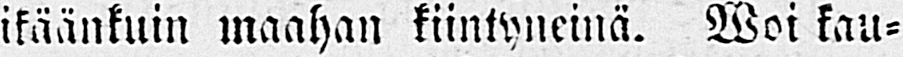ikäänkuin maahan kiintyneinä. Woi kau-
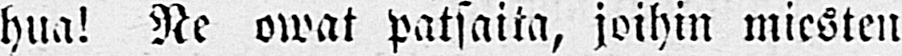hua! Ne owat patsaita, joihin miesten
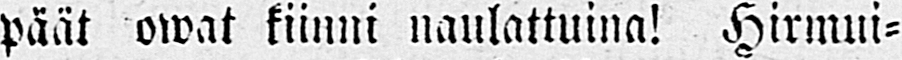päät owat kiinni naulattuina! Hirmui-
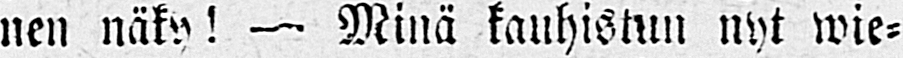nen näkö! — Minä kauhistun nyt wie-
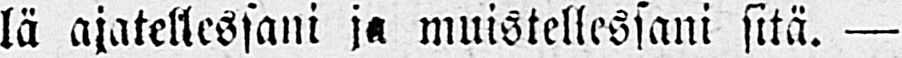lä ajatellessani ja muistellessani sitä. —
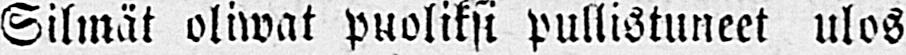Silmät oliwat puoliksi pullistuneet ulos
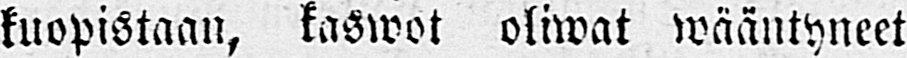kuopistaan, kaswot oliwat wääntyneet
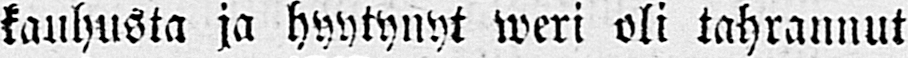kauhusta ja hyytynyt weri oli tahrannut
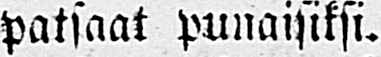patsaat punaisiksi.
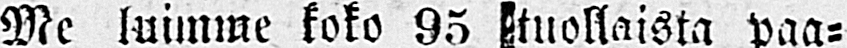Me luimme koko 95 tuollaista paa-
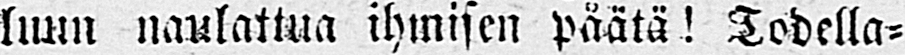luun naulattua ihmisen päätä ! Todella-
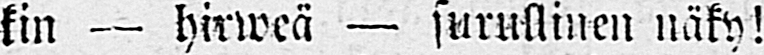kin — hirweä — surullinen näky!
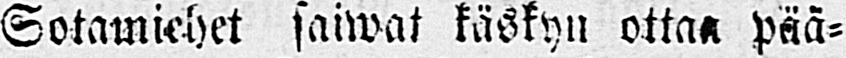Sotamiehet saiwat käskyn ottaa pää-
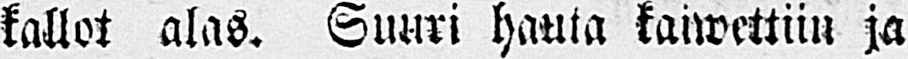kallot alas. Suuri hauta kaiwettiin ja
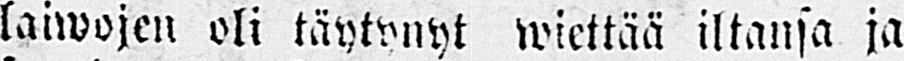laiwojen oli täytynyt wiettää iltansa ja
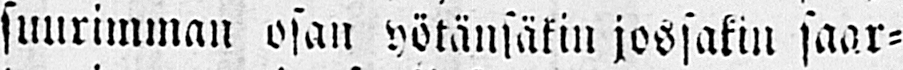suurimman osan yötänsäkin jossakin saar-
